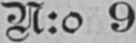N:o 9
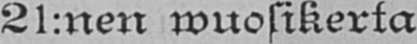21:nen wuosikerta
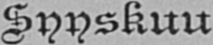Syyskuu
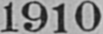1910
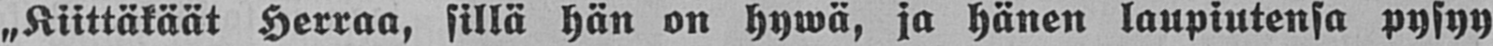„Kiittäkäät Herraa, sillä hän on hywä, ja hänen laupiutensa pysyy
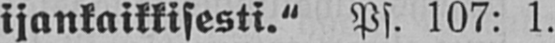ijankaikkisesti." Ps. 107: 1.
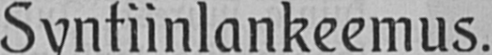Syntiinlankeemus.
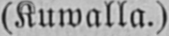(Kuwalla.)
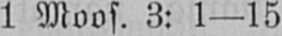1 Moos. 3: 1—15.
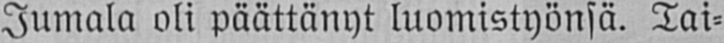Jumala oli päättänyt luomistyönsä. Tai-
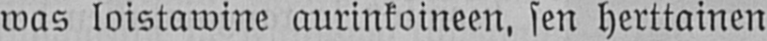was loistawine aurinkoineen, sen herttainen
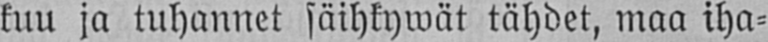kuu ja tuhannet säihkywät tähdet, maa iha-
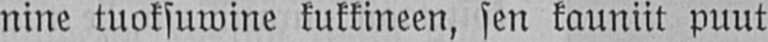nine tuoksuwine kukkineen, sen kauniit puut
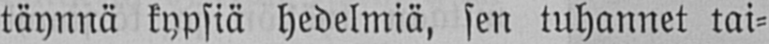täynnä kypsiä hedelmiä, sen tuhannet tai-
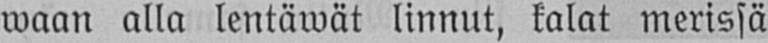waan alla lentäwät linnut, kalat merissä
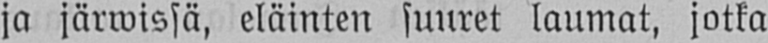ja järwissä, eläinten suuret laumat, jotka
